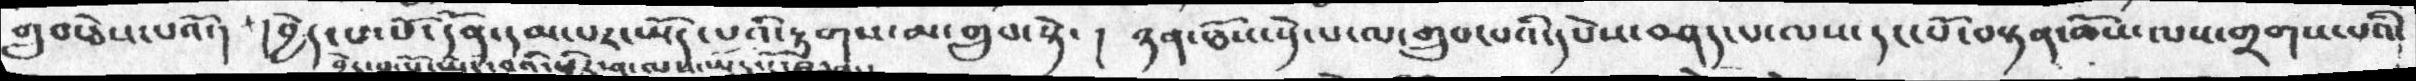གྲུབ་ཅེས་པའོ་།  །བྱེད་པ་པོ་དོན་དམ་པར་ཡོད་པའི་རྟགས་མ་གྲུབ་སྟེ་།  ཉན་ཐོས་དེ་པ་ལ་གྲུབ་པའི་དཔེས་བཤད་པ་ལས་དང་པོ་བསྟན་ཆོས་ལས་གྲགས་པའི་
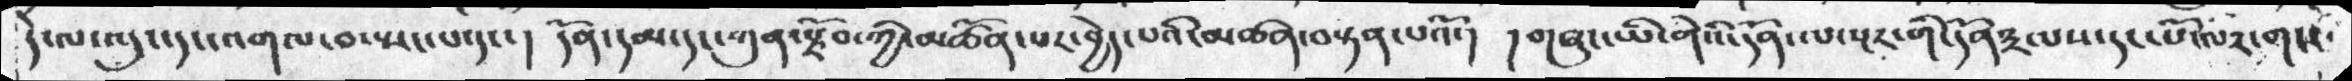དེ་ལ་འདུང་དང་འགལ་བ་སྤང་པ་དང་།  དོན་དམ་དང་ཀུན་རྫོབ་ཀྱི་མཚོན་པར་བྱེད་པའི་མཚན་བསྟན་པའོ་།  །གཞུང་ཡི་གེའི་དོན་སྔར་གི་དོན༣ལས་དང་པོ་ལ༢་གས་
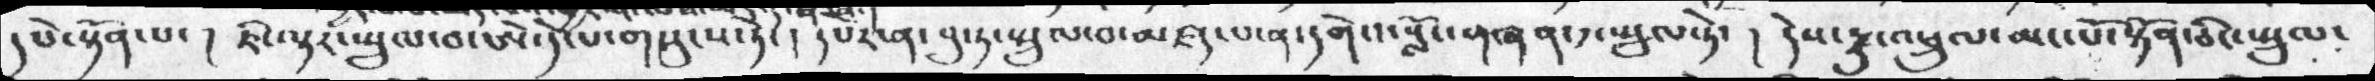དཔེ་སྟོན་པ་།  ཇི་ལྟར་སྤྲུལ་བ་ཨེ་དེ་པ་གསུངས་ཏེ་།  དཔེར་ན་བུ་ཏ་སྤྲུལ་བ་མཛད་པ་ན་དགེའ་སློང་གཞན་༡་སྤྲུལ་ཏེ་།  དེས་རྫུ་འཕྲུལ་མང་པོ་སྟོན་ཅིང་སྤུལ་
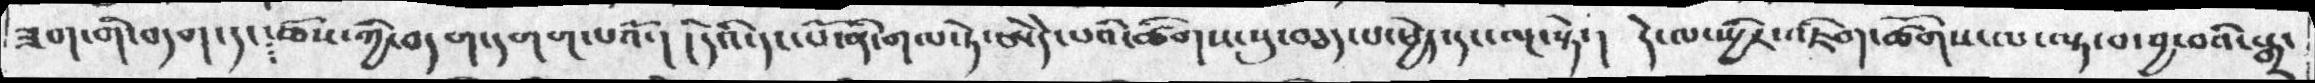ཟག་གི་བདག་ཆོས་ཀྱི་བདག་དགག་པའོ་།  །དེའི་དང་པོ་ནི་གལ་ཏེ་ཨེདེ་པའི་ཚིགས་སུ་བཅད་པ་ཕྱེད་དང་ལྔ་སྟེ་།  དེ་ལ་སྤྱིར་འཇིག་ཚོགས་ལ་ལྟ་བ་བྱ་བའི་སྒྲ་
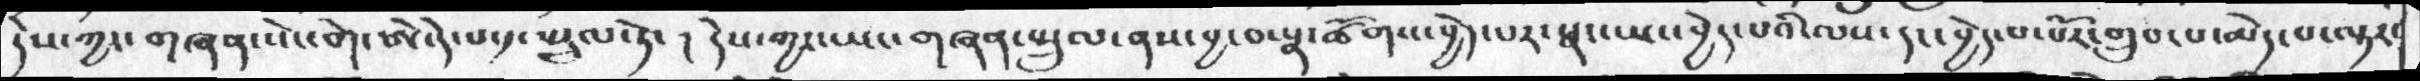དེས་ཀྱང་གཞན་སེང་གེ་ཨེ་དེ་པ་༡་སྤྲུལ་ཏེ་ ། དེས་ཀྱང་ཡང་གཞན་སྤྲུལ་ནས་བྱ་བ་སྣ་ཚོགས་བྱེད་པར་སྣང་ཡང་བྱེད་པའི་ལས་དང་བྱེད་པ་པོར་གྲུབ་པ་མེད་པ་ལྟར་
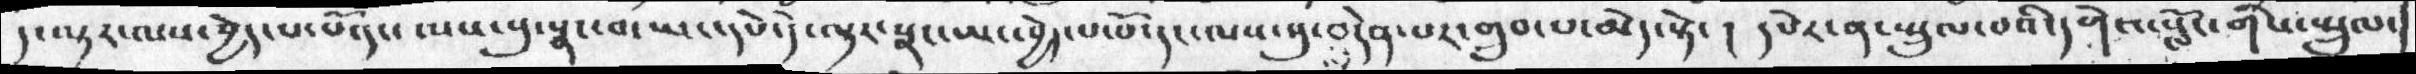ད་ལྟར་ལས་བྱེད་པ་པོ་དང་ལས་སུ་སྣང་བ་ཡང་དཔེ་དེ་ལྟར་སྣང་ཡང་བྱེད་པོ་པོ་དང་ལས་སུ་བདེན་པར་གྲུབ་པ་མེད་སྟེ་ ། དཔེར་ན་སྤྲུལ་པའི་དགེའ་སློང་གིས་སྤྲུལ་
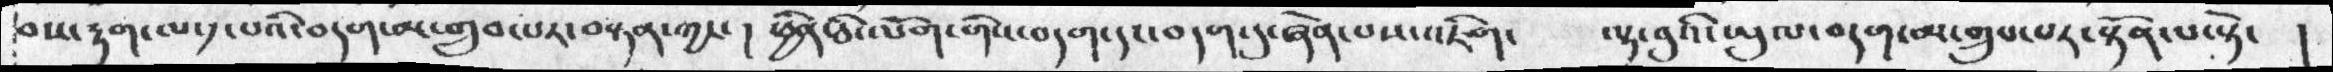བས་རྟག་ལ་༡་པའི་བདག་མ་གྲུབ་པར་བསྟན་ཀྱང་ ། ཕྱིན་ཅི་ལོག་གིས་བདག་དང་བདག་དུ་ཞེས་པས་འཇིག་     ལྟ་བུའི་ཡུལ་བདག་མ་གྲུབ་པར་སྟོན་པ་སྟེ་  །
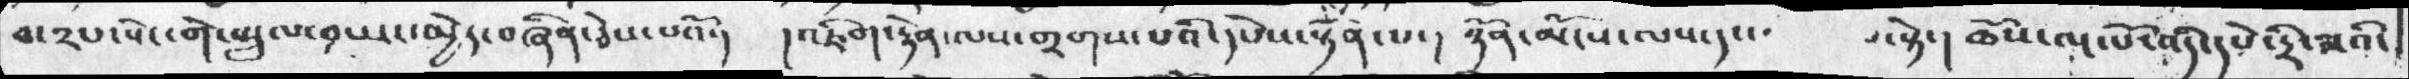བ་༢པ་སེང་གེ་སྤྲུལ་༡ཡང་མྱེད་བཞིན་ཅེས་པའོ་།  །འཇིག་རྟེན་ལས་གྲགས་པའི་དཔེས་སྟོན་པ་།   ཉོན་མོངས་ལས་དང་     པ་སྟེ་།  ཆོས་ལྔ་པོ་འདི་དཔེ་དྲི་ཟའི་
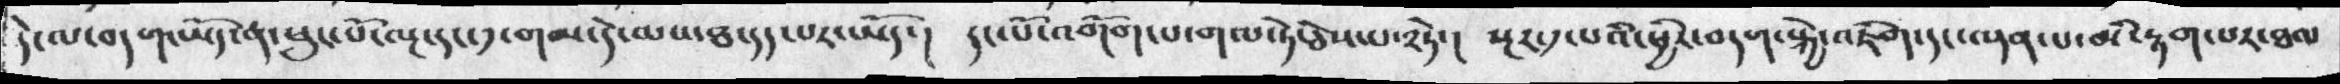དེ་ལ་བདག་ཡོད་ན་ཕུང་པོ་ལྔ་དང་༡་གམ་དེ་ལས་ཐ་དད་པར་ཡོད་།  དང་པོ་འགོག་པ་གལ་ཏེ་ཅེས་པ་༢ཏེ་།  སྔར་༡་པའི་ཕྱིར་བདག་སྐྱེ་འཇིག་དང་ལྡན་པ་མི་རྟག་པར་ཐལ
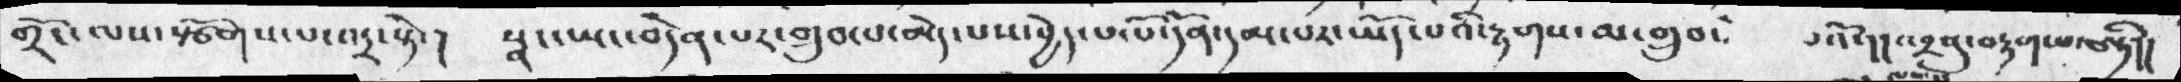གྲོང་ལས་སྩོགས་པ་འདྲ་སྟེ་།  སྣང་ཡང་བདེན་པར་གྲུབ་པ་མེད་པས་བྱེད་པ་པོ་དོན་དམ་པར་ཡོད་པའི་རྟགས་མ་གྲུབ་  པའོ་དད་འབྲསུ་བརྟག་པ་བསྟི།།
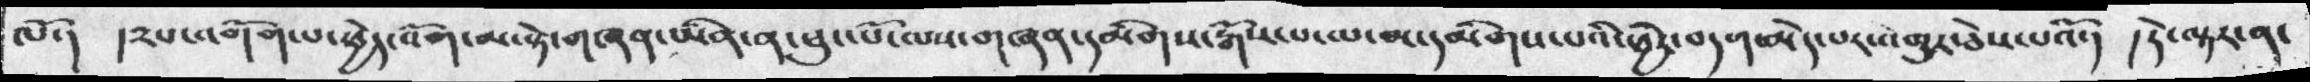ལོ་།  །༢པ་འགོག་པ་ཕྱེད་འོག་མ་སྟེ་གཞན་ཡིན་ན་ཕུང་པོ་ལས་གཞན་དམིགས་རྒོས་ལ་མ་དམིགས་པའི་ཕྱིར་བདག་མེད་པར་འགྱུར་ཅེས་པའོ་།  ། དེ་ལྟར་ན་
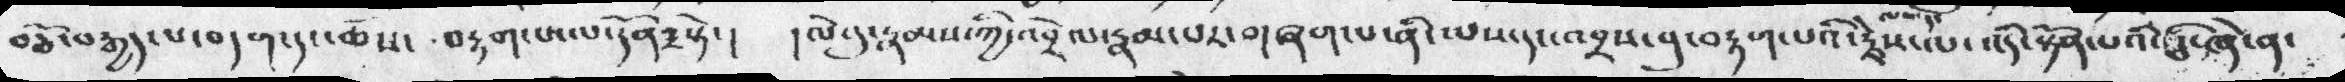བཅོ་བརྒྱད་པ་བདག་དང་ཆོས་ བརྟག་པ་ལ་དོན་༣སྟེ་།  ། ལེའུ་རྣམས་ཀྱི་འབྲེལ་རྣམ་པར་གཞག་པ་ནི་ལས་དང་འབྲས་བུ་བརྟག་པའི་ལས་དང་རྗེས་པ་འདི་སྟོན་པའི་ཅི་ཞེ་ན་
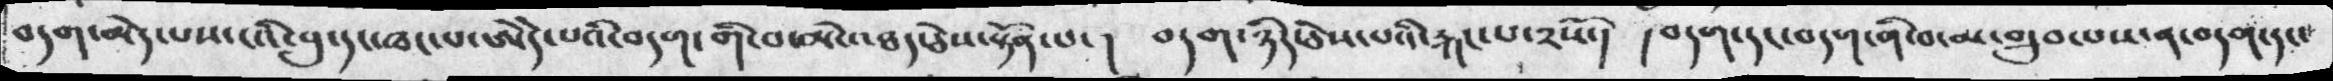བདག་མེད་པས་ངའི་བུ་དང་ཁང་ཨེདེ་པའི་བདག་གི་བ་མི་འཐད་ཅེས་སྟོན་པ་།   བདག་ཉིད་ཅེས་པའི་རྐང་པ་༢སོ་།   །བདག་དང་བདག་གི་བ་མ་གྲུབ་པས་ན་བདག་དང་
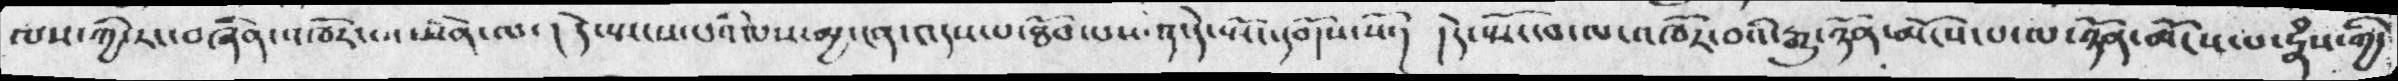ལས་ཀྱི་རང་བཞིན་འཁོར་བ་ཡིན་ལ་།  དེ་སྤངས་པའི་ལས་མྱ་ངན་འདས་པ་ཐོབ་པས་ན་དེ་སྤོང་དགོས་སོ་།  །དེ་སྤོང་བ་ལ་འཁོར་བའི་རྒྱུ་ཉོན་མོངས་པ་ལ་ཉོན་མོངས་པ་རྣཾས་ཀྱི་
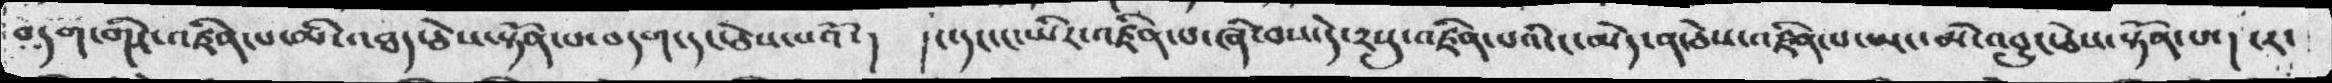བདག་གིར་འཛིན་པ་མི་འཐད་ཅེས་སྟོན་པ་བདག་དང་ཅེས་པའོ་།  །ང་དང་ང་ཡིར་འཛིན་པ་ཞི་བས་དེ་༢སུ་འཛིན་པའི་ང་མེད་ན་ཅེས་འཛིན་པ་ཡང་མི་འབྱུང་ཅེས་སྟོན་པ་།  ངར་
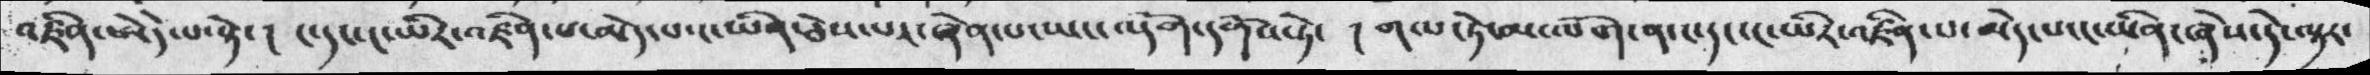འཛིན་ཨེདེ་པ་སྟེ་ ། ང་དང་ང་ཡིར་འཛིན་པ་མེད་པ་རང་ཡིན་ཅེསཔར་ཞེས་པ་ཡང་འདོག་དགོས་སྟེ་  ། གལ་ཏེ་མ་ལོག་ན་ང་དང་ང་ཡིར་འཛིན་པ་མེད་ང་ཡིན་ཞེས་དེ་ལྟར་
